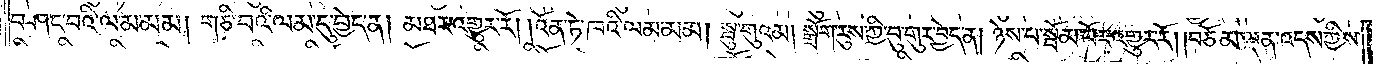བཤང་བའི་ལམ་མམ། གཅི་བའི་ལམ་དུ་བྱེད་ན། མཐར་འགྱུར་རོ། །འོན་ཏེ་ཁའི་ལམ་མམ། སྦུ་གུའམ། སྒྲོག་རུས་ཀྱི་བུ་གུར་བྱེད་ན། ཉེས་པ་སྦོམ་པོར་འགྱུར་རོ། །བཅོམ་ལྡན་འདས་ཀྱིས་
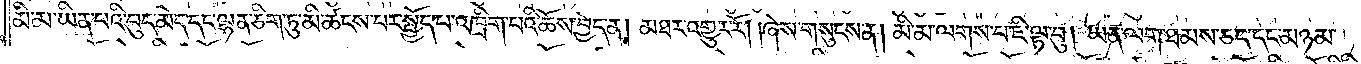མི་མ་ཡིན་པའི་བུད་མེད་དང་ལྷན་ཅིག་ཏུ་མི་ཚངས་པར་སྤྱོད་པ་འཁྲིག་པའི་ཆོས་བྱེད་ན། མཐར་འགྱུར་རོ། །ཞེས་གསུངས་ན། མི་མ་ལགས་པར་ཇི་ལྟ་བུ། ཡན་ལག་ཐམས་ཅད་དང་མཉམ་
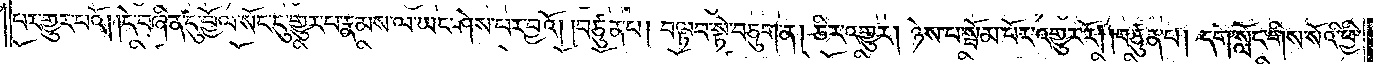པར་གྱུར་པའོ། །དེ་བཞིན་དུ་བྱོལ་སོང་དུ་གྱུར་པ་རྣམས་ལ་ཡང་ཤེས་པར་བྱའོ། བཙུན་པ། བལྟབ་སྟེ་བཅུག་ན། ཅིར་འགྱུར། ཉེས་པ་སྦོམ་པོར་འགྱུར་རོ། །བཙུན་པ། དགེ་སློང་གིས་སོའི་ཕྱི་
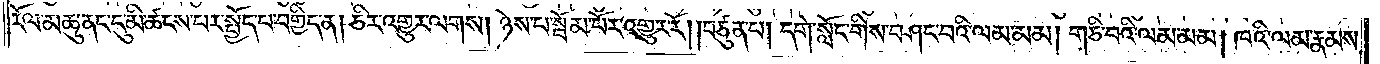རོལ་མཆུ་ནང་དུ་མི་ཚངས་པར་སྤྱོད་པ་བགྱིད་ན། ཅིར་འགྱུར་ལགས། ཉེས་པ་སྦོམ་པོར་འགྱུར་རོ། །བཙུན་པ། དགེ་སློང་གིས་བཤང་བའི་ལམ་མམ། གཅི་བའི་ལམ་མམ། ཁའི་ལམ་རྣམས་
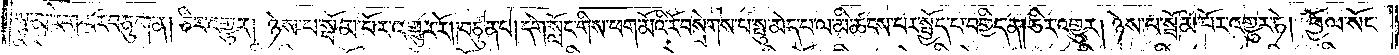སུ་མ་རེག་པར་བཅུག་ན། ཅིར་འགྱུར། ཉེས་པ་སྦོམ་པོར་འགྱུར་རོ། །བཙུན་པ། དགེ་སློང་གིས་ཕག་མོའི་རོ་བསྲེགས་པ་སྤུ་མེད་པ་ལ་མི་ཚངས་པར་སྤྱོད་པ་བགྱིད་ན། ཅིར་འགྱུར། ཉེས་པ་སྦོམ་པོར་འགྱུར་ཏེ། བྱོལ་སོང་
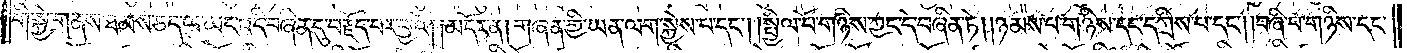གི་སྐྱེ་གནས་ཐམས་ཅད་ལ་ཡང་འདི་བཞིན་དུ་བརྗོད་པར་བྱའོ། །མདོར་ན། གཞན་གྱི་ཡན་ལག་སྐྱེས་པ་དང༌། སྤྱིལ་པོ་གཉིས་ཀྱང་དེ་བཞིན་ཏེ། །ཉམས་པ་གཉིས་དང་དཀྲིས་པ་དང༌། །བཞི་པ་གཉིས་དང་
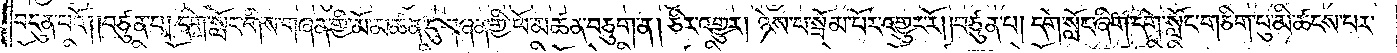བདུན་པའོ། །བཙུན་པ། དགེ་སློང་གིས་གཞན་གྱི་མོ་མཚན་དུ་གཞན་གྱི་ཕོ་མཚན་བཅུག་ན། ཅིར་འགྱུར། ཉེས་པ་སྦོམ་པོར་འགྱུར་རོ། །བཙུན་པ། དགེ་སློང་ཞིག་དགེ་སློང་གཅིག་པུ་མི་ཚངས་པར་
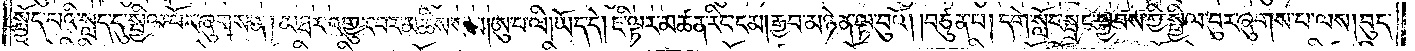སྤྱོད་པའི་སླད་དུ་སྤྱིལ་པོར་ཞུགས་ན། མཐར་འགྱུར་བར་མཆིས་སམ། ཨུ་པ་ལི། ཡོད་དེ། ཇི་ལྟར་མཚན་རིང་ངམ། རྒྱབ་མཉེན་ལྟ་བུའོ། །བཙུན་པ། དགེ་སློང་སྦྲང་སྐྱབས་ཀྱི་སྤྱིལ་བུར་ཞུགས་པ་ལས། བུད་
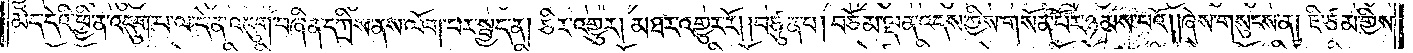མེད་དེའི་ཕྱི་ན་འདུག་པ་ལ་དེ་ན་འདུག་བཞིན་དཀྲིས་ནས་ལོག་པར་སྤྱད་ན། ཅིར་འགྱུར། མཐར་འགྱུར་རོ། །བཙུན་པ། བཅོམ་ལྡན་འདས་ཀྱིས་གསོན་པོར་ཉམས་པའོ། །ཞེས་གསུངས་ན། ཇི་ཙམ་གྱིས་
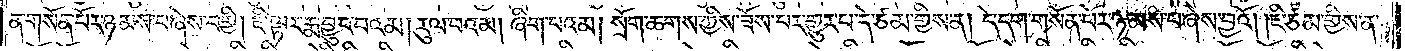ན་གསོན་པོར་ཉམས་པ་ཞེས་བགྱི། ཇི་ལྟར་རྨ་བྱུང་བའམ། རུལ་བའམ། ཞིག་པའམ། སྲོག་ཆགས་ཀྱིས་ཟོས་པར་གྱུར་པ་དེ་ཙམ་གྱིས་ན། དེ་དག་གསོན་པོར་ཉམས་པ་ཞེས་བྱའོ། །ཇི་ཙམ་གྱིས་ན་
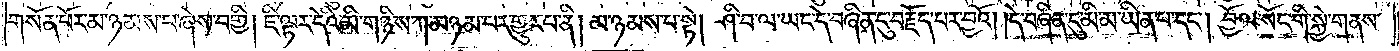གསོན་པོར་མ་ཉམས་པ་ཞེས་བགྱི། ཇི་ལྟར་དེའི་མི་གཉིས་ཀ་མཉམ་པར་གྱུར་པ་ནི། མ་ཉམས་པ་སྟེ། ཤི་བ་ལ་ཡང་དེ་བཞིན་དུ་བརྗོད་པར་བྱའོ། །དེ་བཞིན་དུ་མི་མ་ཡིན་པ་དང༌། བྱོལ་སོང་གི་སྐྱེ་གནས་
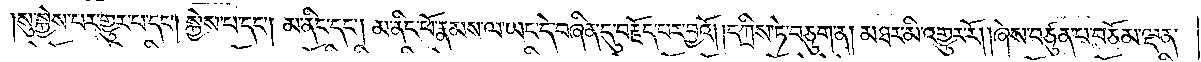།སུ་སྐྱེས་པར་གྱུར་པ་དང༌། སྐྱེས་པ་དང༌། མ་ནིང་དང༌། མ་ནིང་ཕོ་རྣམས་ལ་ཡང་དེ་བཞིན་དུ་བརྗོད་པར་བྱའོ། །དཀྲིས་ཏེ་བཅུག་ན། མཐར་མི་འགྱུར་རོ། །ཞེས་བཙུན་པ་བཅོམ་ལྡན་
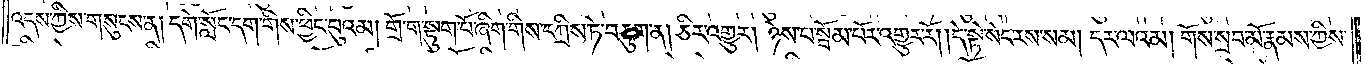འདས་ཀྱིས་གསུངས་ན། དགེ་སློང་དག་གིས་ཕྱིང་བུའམ། གྲོ་ག་སྟུག་པོ་ཞིག་གིས་དཀྲིས་ཏེ་བཅུག་ན། ཅིར་འགྱུར། ཉེས་པ་སྦོམ་པོར་འགྱུར་རོ། །དེ་སྟེ་སེང་རས་སམ། དར་ལའམ། གོས་སྲབ་མོ་རྣམས་ཀྱིས་
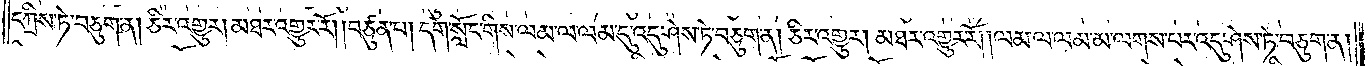དཀྲིས་ཏེ་བཅུག་ན། ཅིར་འགྱུར། མཐར་འགྱུར་རོ། །བཙུན་པ། དགེ་སློང་གིས་ལམ་ལ་ལམ་དུ་འདུ་ཤེས་ཏེ་བཅུག་ན། ཅིར་འགྱུར། མཐར་འགྱུར་རོ། །ལམ་ལ་ལམ་མ་ལགས་པར་འདུ་ཤེས་ཏེ་བཅུག་ན།
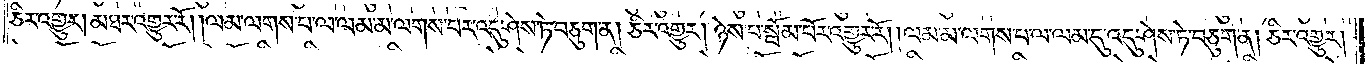ཅིར་འགྱུར། མཐར་འགྱུར་རོ། །ལམ་ལགས་པ་ལ་ལམ་མ་ལགས་པར་འདུ་ཤེས་ཏེ་བཅུག་ན། ཅིར་འགྱུར། ཉེས་པ་སྦོམ་པོར་འགྱུར་རོ། །ལམ་མ་ལགས་པ་ལ་ལམ་དུ་འདུ་ཤེས་ཏེ་བཅུག་ན། ཅིར་འགྱུར།
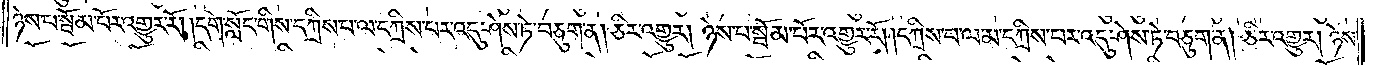ཉེས་པ་སྦོམ་པོར་འགྱུར་རོ། །དགེ་སློང་གིས་དཀྲིས་པ་ལ་དཀྲིས་པར་འདུ་ཤེས་ཏེ་བཅུག་ན། ཅིར་འགྱུར། ཉེས་པ་སྦོམ་པོར་འགྱུར་རོ། །དཀྲིས་པ་ལ་མ་དཀྲིས་པར་འདུ་ཤེས་ཏེ་བཅུག་ན། ཅིར་འགྱུར། ཉེས་
